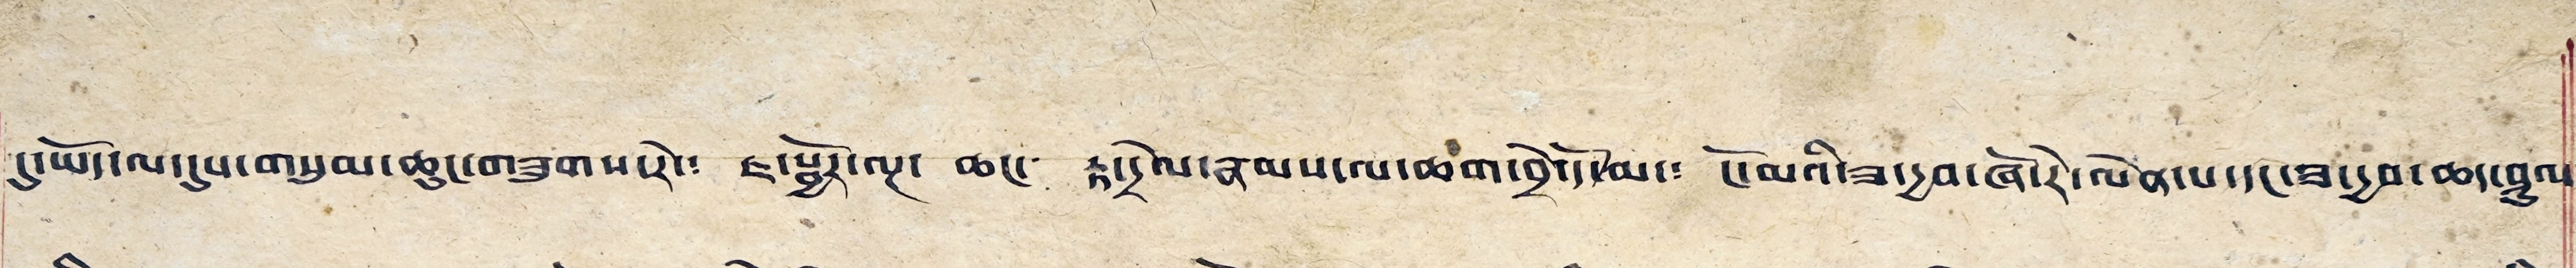དུ་ཡོད་ལ་དུས་གསུམ་ཆུང་གཟུགས་རེ་༴ ཇ་སྦྱོར་ལྔ། ཆང་། རྟ་དྲེལ་རྣམས་ལ་ཆག་བྲེ་དོ་མ་༴ ངོ་མའི་ཟ་དྱབ་ཞོ་རེ་ལེན་པ་དང་བ་དྱབ་མ་ཤུལ༴
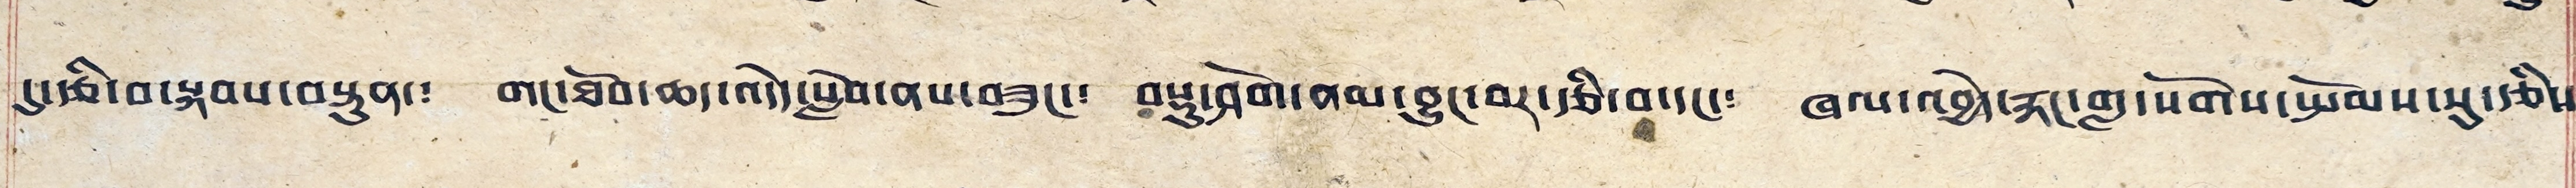དུ་རྩི་བ་སྐབས་བསྟུན་༴ གང་ཐོབ་ཆད་འདོད་སླེབ་ནས་བཟུང་༴ བསྡུ་ཤོག་ནམ་བྱུང་བར་རྩི་བ་དང་༴ ཁལ་འབྱེད་རྐང་གླ་སོགས་སྤོམས་སུ་རྩིས༴
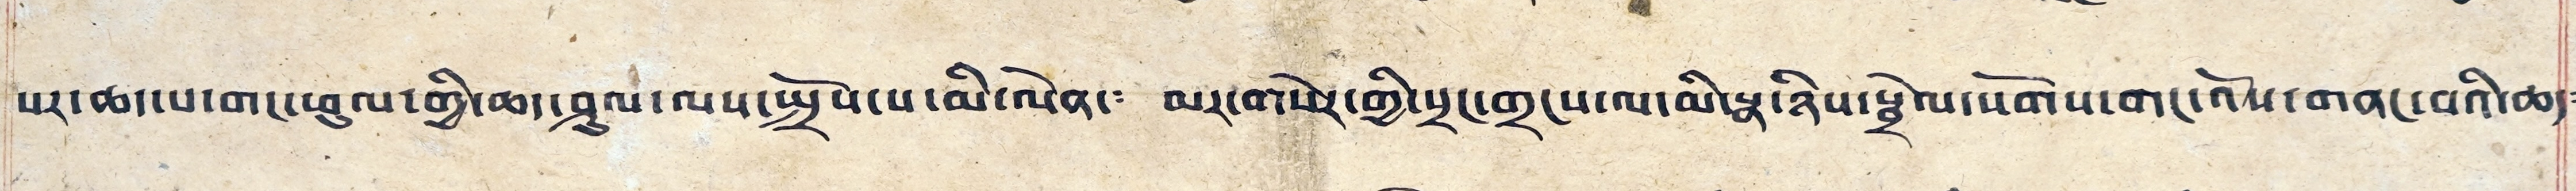པར་ཆད་པ་གང་ཕུལ་གྱི་ཆད་ཤུལ་ལས་སྤྲོས་པ་མི་ལེན་༴ མར་གསེར་གྱི་སྲང་གྲངས་ལ་མི་སྣ་ཉིས་སྦྲེལ་སོགས་གང་འོས་གནང་བའི་ཆད༴
